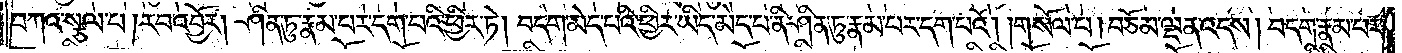བཀའ་སྩལ་པ། རབ་འབྱོར། ཤིན་ཏུ་རྣམ་པར་དག་པའི་ཕྱིར་ཏེ། བདག་མེད་པའི་ཕྱིར་ཡིད་མེད་པ་ནི་ཤིན་ཏུ་རྣམ་པར་དག་པའོ། །གསོལ་པ། བཅོམ་ལྡན་འདས། བདག་རྣམ་པར་
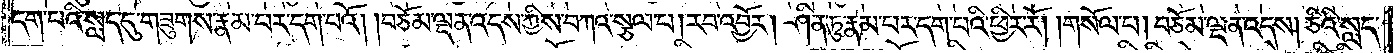དག་པའི་སླད་དུ་གཟུགས་རྣམ་པར་དག་པའོ། །བཅོམ་ལྡན་འདས་ཀྱིས་བཀའ་སྩལ་པ། རབ་འབྱོར། ཤིན་ཏུ་རྣམ་པར་དག་པའི་ཕྱིར་རོ། །གསོལ་པ། བཅོམ་ལྡན་འདས། ཅིའི་སླད་
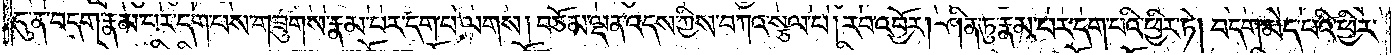དུ་ན་བདག་རྣམ་པར་དག་པས་གཟུགས་རྣམ་པར་དག་པ་ལགས། བཅོམ་ལྡན་འདས་ཀྱིས་བཀའ་སྩལ་པ། རབ་འབྱོར། ཤིན་ཏུ་རྣམ་པར་དག་པའི་ཕྱིར་ཏེ། བདག་མེད་པའི་ཕྱིར་
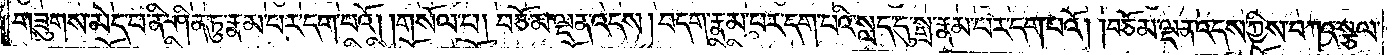གཟུགས་མེད་པ་ནི་ཤིན་ཏུ་རྣམ་པར་དག་པའོ། །གསོལ་པ། བཅོམ་ལྡན་འདས། བདག་རྣམ་པར་དག་པའི་སླད་དུ་སྒྲ་རྣམ་པར་དག་པའོ། །བཅོམ་ལྡན་འདས་ཀྱིས་བཀའ་སྩལ་
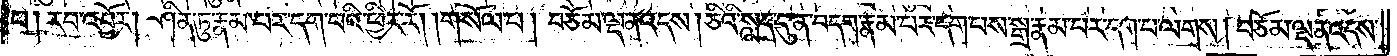པ། རབ་འབྱོར། ཤིན་ཏུ་རྣམ་པར་དག་པའི་ཕྱིར་རོ། །གསོལ་པ། བཅོམ་ལྡན་འདས། ཅིའི་སླད་དུ་ན་བདག་རྣམ་པར་དག་པས་སྒྲ་རྣམ་པར་དག་པ་ལགས། བཅོམ་ལྡན་འདས་
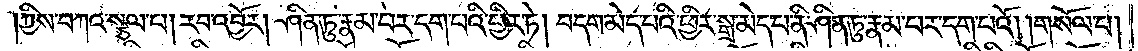ཀྱིས་བཀའ་སྩལ་པ། རབ་འབྱོར། ཤིན་ཏུ་རྣམ་པར་དག་པའི་ཕྱིར་ཏེ། བདག་མེད་པའི་ཕྱིར་སྒྲ་མེད་པ་ནི་ཤིན་ཏུ་རྣམ་པར་དག་པའོ། །གསོལ་པ།
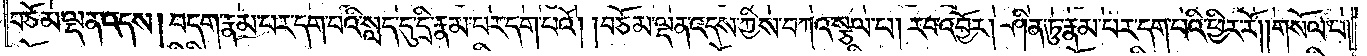བཅོམ་ལྡན་འདས། བདག་རྣམ་པར་དག་པའི་སླད་དུ་དྲི་རྣམ་པར་དག་པའོ། །བཅོམ་ལྡན་འདས་ཀྱིས་བཀའ་སྩལ་པ། རབ་འབྱོར། ཤིན་ཏུ་རྣམ་པར་དག་པའི་ཕྱིར་རོ། །གསོལ་པ།
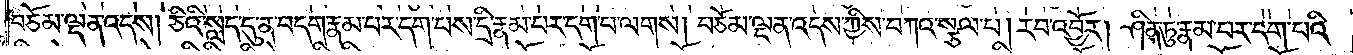བཅོམ་ལྡན་འདས། ཅིའི་སླད་དུ་ན་བདག་རྣམ་པར་དག་པས་དྲི་རྣམ་པར་དག་པ་ལགས། བཅོམ་ལྡན་འདས་ཀྱིས་བཀའ་སྩལ་པ། རབ་འབྱོར། ཤིན་ཏུ་རྣམ་པར་དག་པའི་
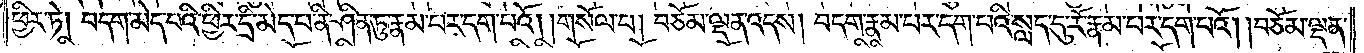ཕྱིར་ཏེ། བདག་མེད་པའི་ཕྱིར་དྲི་མེད་པ་ནི་ཤིན་ཏུ་རྣམ་པར་དག་པའོ། །གསོལ་པ། བཅོམ་ལྡན་འདས། བདག་རྣམ་པར་དག་པའི་སླད་དུ་རོ་རྣམ་པར་དག་པའོ། །བཅོམ་ལྡན་
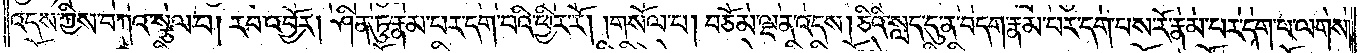འདས་ཀྱིས་བཀའ་སྩལ་པ། རབ་འབྱོར། ཤིན་ཏུ་རྣམ་པར་དག་པའི་ཕྱིར་རོ། །གསོལ་པ། བཅོམ་ལྡན་འདས། ཅིའི་སླད་དུ་ན་བདག་རྣམ་པར་དག་པས་རོ་རྣམ་པར་དག་པ་ལགས།
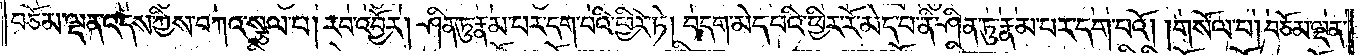བཅོམ་ལྡན་འདས་ཀྱིས་བཀའ་སྩལ་པ། རབ་འབྱོར། ཤིན་ཏུ་རྣམ་པར་དག་པའི་ཕྱིར་ཏེ། བདག་མེད་པའི་ཕྱིར་རོ་མེད་པ་ནི་ཤིན་ཏུ་རྣམ་པར་དག་པའོ། །གསོལ་པ། བཅོམ་ལྡན་
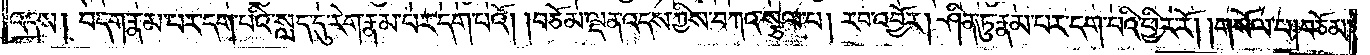འདས། བདག་རྣམ་པར་དག་པའི་སླད་དུ་རེག་རྣམ་པར་དག་པའོ། །བཅོམ་ལྡན་འདས་ཀྱིས་བཀའ་སྩལ་པ། རབ་འབྱོར། ཤིན་ཏུ་རྣམ་པར་དག་པའི་ཕྱིར་རོ། །གསོལ་པ། བཅོམ་
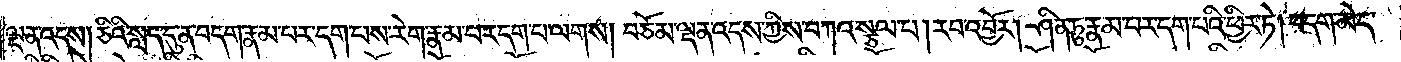ལྡན་འདས། ཅིའི་སླད་དུ་ན་བདག་རྣམ་པར་དག་པས་རེག་རྣམ་པར་དག་པ་ལགས། བཅོམ་ལྡན་འདས་ཀྱིས་བཀའ་སྩལ་པ། རབ་འབྱོར། ཤིན་ཏུ་རྣམ་པར་དག་པའི་ཕྱིར་ཏེ། བདག་མེད་
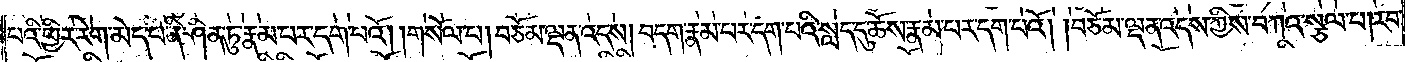པའི་ཕྱིར་རེག་མེད་པ་ནི་ཤིན་ཏུ་རྣམ་པར་དག་པའོ། །གསོལ་པ། བཅོམ་ལྡན་འདས། བདག་རྣམ་པར་དག་པའི་སླད་དུ་ཆོས་རྣམ་པར་དག་པའོ། །བཅོམ་ལྡན་འདས་ཀྱིས་བཀའ་སྩལ་པ། རབ་
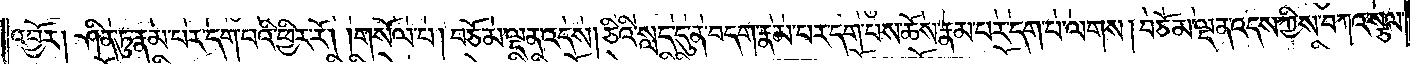འབྱོར། ཤིན་ཏུ་རྣམ་པར་དག་པའི་ཕྱིར་རོ། །གསོལ་པ། བཅོམ་ལྡན་འདས། ཅིའི་སླད་དུ་ན་བདག་རྣམ་པར་དག་པས་ཆོས་རྣམ་པར་དག་པ་ལགས། བཅོམ་ལྡན་འདས་ཀྱིས་བཀའ་སྩལ་
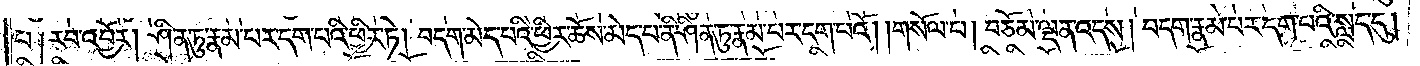པ། རབ་འབྱོར། ཤིན་ཏུ་རྣམ་པར་དག་པའི་ཕྱིར་ཏེ། བདག་མེད་པའི་ཕྱིར་ཆོས་མེད་པ་ནི་ཤིན་ཏུ་རྣམ་པར་དག་པའོ། །གསོལ་པ། བཅོམ་ལྡན་འདས། བདག་རྣམ་པར་དག་པའི་སླད་དུ།
